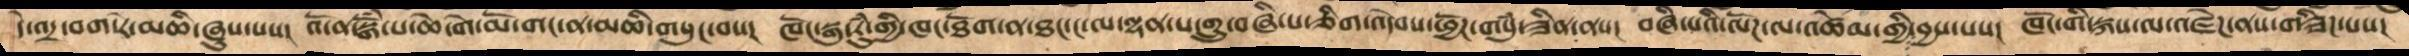དེ་འདྲ་བག་རེ་མཆི་ཞུས་པས།  འོ་ན་སྒོཾ་པ་ཆེ་གེ་མོ་གང་ན་མཆི་གསུང་བས།  ཁོང་སྐུ་རུཾ་གྱི་ཁང་ཐོག་ན་ཐང་ང་ལ་ལྷན་པ་གྲུ་བཞི་པ་ཅིག་འདེབས་ཕྱོཌ་གསུཾ་ཟིན་ནས།  བཞི་པའི་ལོཌ་ལ་འཚེམ་གྱི་བྱས་པས།  ཁོང་གི་སྐས་ལ་འཛེཌ་ནས་གཟིཌ་པས།
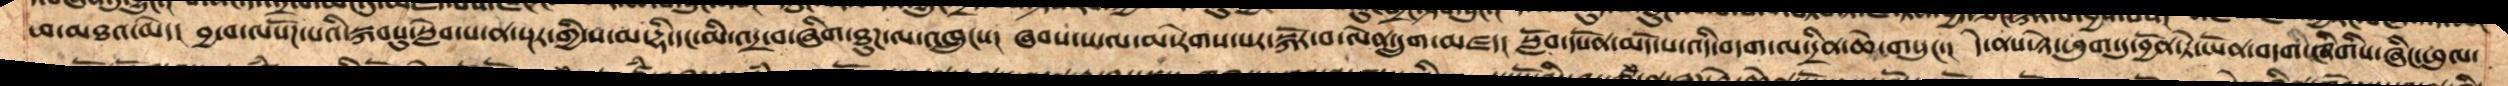ཕ་མཐའ་མེད།  བྱ་བ་ལ་སོཌ་པའི་སྐབསུ་སླེབས་ན་སྔར་གྱི་ས་མ་དྷི་དང་མི་འདྲ་བ་ཞིག་ཐུཌ་ལ་འཁྲུངས།  ཞབས་ས་ལ་མ་རེགས་པར་སྐོར་བ་ལེན་དྲུག་མཛད།  སློབ་དཔོན་མདོ་ས་འདི་བདག་ལ་དྲིན་ཆེ་གསུང་།   དེ་ནས་ཉེ་ཕུག་དུ་བྱོན་ཏེ་ཡོན་བདག་ཞིགིས་ཞིང་ཕུལ་
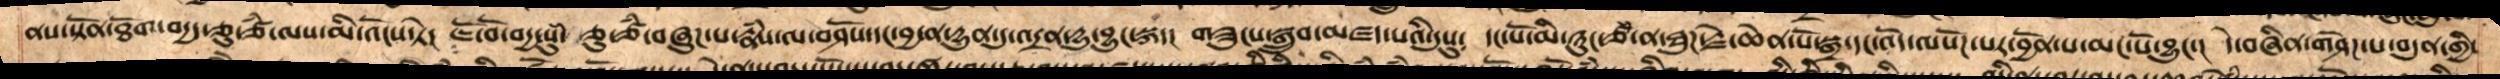ནས་སྟོན་ཐོག་བདྱད་ཅུ་ཙཾ་ལས་མི་འོངས་ཏེ།  ཇོ་བོ་བདྱ་སུཾ་ ཅུ་ཙཾ་བཞུཌ་པ་རྣཾས་ལ་བཤོས་དང་བྱ་ན་དྱུན་དུ་འདྲན་དྱུ་བྱུང་སྐད་།   གཟུངས་སྒྲུབ་མཛད་པའི་དུསུ༴  དང་པོ་མི་ཉུང་ཙཾ་ན་ཐུཌ་རྗེ་ཆེན་པོ་སྒྲ་དང་འོད་ལསོཌ་པར་བྱོན་པ་མང་པོ་བྱུང་།  དེ་བཞིན་གཤེཌ་པ་བདུན་གྱི་
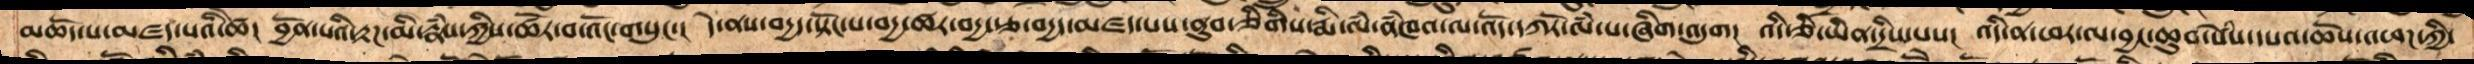མཆོད་པ་མཛད་པའི་ཚེ།  བྱོན་པའི་རྟཌ་མི་རྣཾས་ཀྱིས་ཚོར་བ་འོང་གསུང་།  དེ་ནས་བདྱ་སྟོང་པ་བདྱ་ཚར་བདྱ་རྩ་བདྱད་མཛད་པས་ནུབ་ཅིགིས་རྨི་ལཾ་ནཾཁའ་ལ་འོད་དཀོར་ལཾ་པ་ཞིག་འདུག།  འདི་ཅི་ཡིན་དྲིས་པས།  འདི་ན་ཕར་ལ་བྱང་ཆུབ་སེཾས་དཔའ་ཆོས་འཕཌ་ཀྱི་
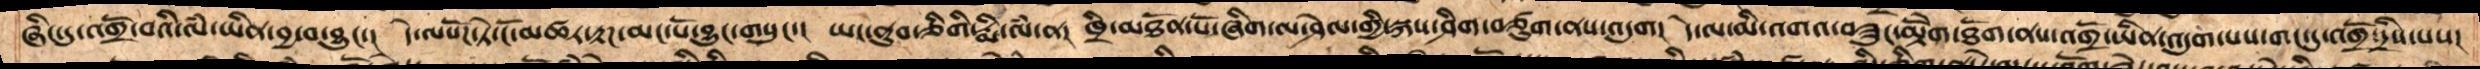ཞིང་དུ་འགྲོ་བའི་ལཾ་ཡིན་བྱ་བ་བྱུང་།  དེ་ལསོཌ་ཏེ་ངོ་མཚར་རྟཌ་མང་པོ་བྱུང་གསུང་།  ཡང་ནུབ་ཅིགི་རྨི་ལཾ་ན།  ཁྲི་མཐོན་པོ་ཞིག་ལ་ཤེལ་གྱི་སྐས་ཤིག་བཙུག་ནས་འདུག  དེ་ལ་མི་འགའ་བཟུང་མྟོེག་ཐོག་ནས་འགྲོ་ཡིན་འདུག་པས་གང་དུ་འགྲོ་དྲིས་པས།
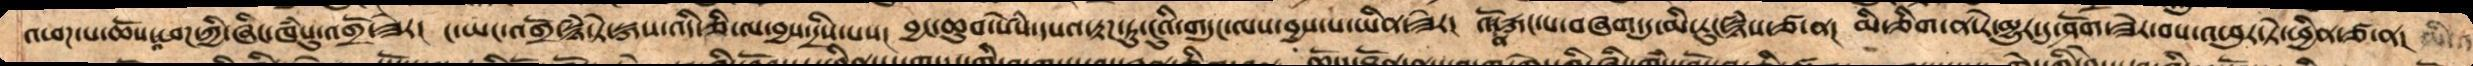འཕཌ་པ་ཆོས་འཕཌ་ཀྱི་ཞིང་ཁཾསུ་འགྲོ་ཟེར། ང་ཡང་འགྲོ་སྙཾ་སྟེ་སྐས་འདི་ཅི་ལ་བྱས་དྲིས་པས། བྱང་ཆུབ་སེཾས་དཔའ་རྟཌ་ཏུ་ངུའི་གདུང་ལས་བྱས་པ་ཡིན་ཟེར། འོ་ན་རྐང་པ་བཞག་དུ་མི་རུང་སྙཾས་ཙ་ན། མི་ཅིག་ན་རེ་མྱུར་དུ་ཤོག་ཟེར་བས་འཕུར་ཏེ་ཕྱིན་ཙ་ན། མི་ན
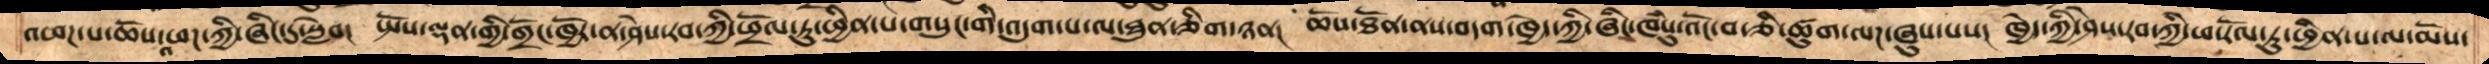འཕཌ་པ་ཆོས་འཕཌ་ཀྱི་ཞིང་དུ་སླེབ།  སྤོས་ལྡན་གྱི་གྲོང་ཁྱེར་ན་ཤེས་རབ་ཀྱི་ཕྲོལ་ཏུཕྱིན་པ་གསུང་གི་འདུག་པ་ལ་ཐུན་ཅིག་ཉན།  ཆོས་ཐོན་ནས་བདག་ཁྱེད་ཀྱི་ཞིང་ཁཾསུ་འོང་བ་ཅི་ཚུག་ལཌ་ཞུས་པས།  ཁྱེད་ཀྱི་ཤེས་རབ་ཀྱི་ཕ་རོལ་ཏུ་ཕྱིན་པ་ལ་མོས་
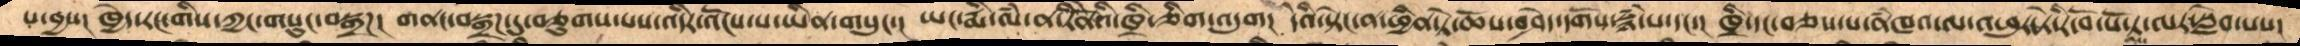པ་བྱས།  ཁྱོད་རང་གིས་ཀྱང་གསུང་བསྒྲཌ།  གནང་བསྒྲཌ་དུ་བཅུགས་པས་འདིར་འོངས་པ་ཡིན་གསུངས།  ཡང་རྨི་ལཾ་ན་རོིནེའི་ཁྲི་ཅིག་འདུག།  དེའི་སྟེང་ན་ཕྱིན་ཏེ་ཆོས་བཤེད་དགོས་སྙཾ་པ་དང་།  ཁྲི་དང་བཅས་པ་ནཾཁའ་ལ་འཕུར་ཏེ་རི་བོ་པོ་ཏ་ལར་སླེབ་པས་
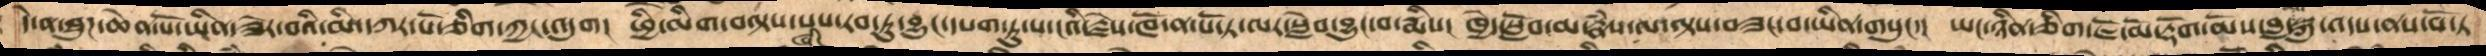དེ་ན་ཐུཌ་ཆེན་པོ་ཡིན་ཟེར་བའི་མི་དཀར་པོ་ཅིག་ཀྱང་འདུག  ཕྱི་མིག་བལྟས་པས་རབ་ཏུ་བྱུང་དཔག་ཏུ་མེད་པ་ངའི་རྗེས་ཁོ་ན་ལ་པོ་ཏ་ལར་སླེབ་བྱུང་བ་རྨིས།  ཁྱེད་སློབ་མ་རྣཾས་ལ་ལྟས་བཟང་བ་ཡིན་གསུང་། ཡང་ཉིན་ཅིག་ཇོ་མོ་རྡོག་མོས་བླ་མ་སྐུ་འདས་ནས་པོ་ཏ་
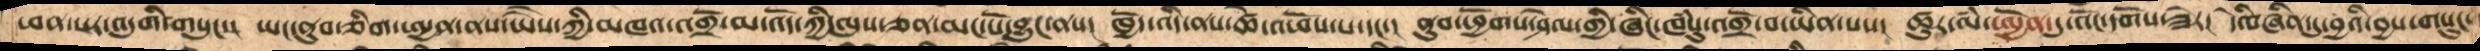ཕན་པར་འདུགི་གསུངས།  ཡང་ནུབ་ཅིག་ཨྱན་ནས་ཡཻས་ཀྱི་མཁའ་འགྲོ་མ་འོད་ཀྱི་ལུས་ཅན་མང་པོ་བྱུང་ནས།  ཁྱོད་འདི་ནས་ཚེ་འཕོས་པ་དང་།  ནུབ་ཕྱོགས་ཤེལ་གྱི་ཞིང་ཁཾསུ་འགྲོ་བ་ཡིན་པས།  ཚུར་ལཾ་ཨྱོན་དུ་འོང་དགོས་ཟེར།  དེ་བཞིན་དུ་བྱའི་བྱས་གསུང་
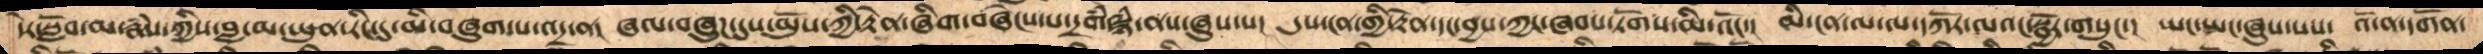དེར་སློབ་མ་རྣཾས་ཀྱིས་བླ་མ་ཡུན་རིང་དུ་མི་བཞུགས་པ་འདྲ་ན།  ཞལ་བཞུཌ་དུས་མོུས་ཀྱི་རྟེན་ཞིག་བཞེངས་པ་དྲགཾ་སྙཾ་ནས་ཞུས་པས།  དུས་ངན་གྱི་རྟེན་དང་བྱས་ཀྱང་ཞབས་ཏོག་མི་འོང་།  མི་ངན་ལ་ལ་དཀོར་ལའང་སྦྱོར་གསུང་།  ཡང་ཡང་ཞུས་པས།  འོ་ན་དགོན་
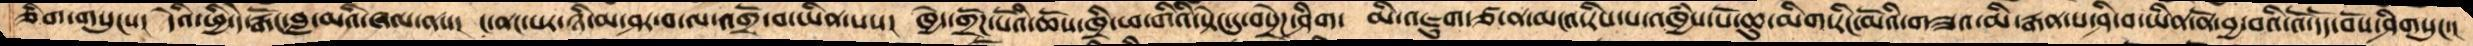ཅིག་གསུངས།  དེའི་ཕྱི་དེ་རྒོང་བླ་མའི་ཞལ་ནས།  ང་ནང་པར་ཉི་མ་ཤར་བ་ལ་འགྲོ་བ་ཡིན་པས།  ཁྱེད་གྲོཌ་པོའི་ཆོས་ཁྲི་ཕ་གིའི་སྟེང་དུ་བསྲེཌ་ཤིག་  མེ་འཇུག་ཙ་ན་མངའ་རིས་པ་འཁྱཾས་པོ་ཆུ་མིག་རིང་མོའི་གཟའ་མི་རྒན་པ་ཤི་བ་ཡིན་ནོ་བྱ་བའི་འོ་དོད་བོས་ཤིགསུངས།
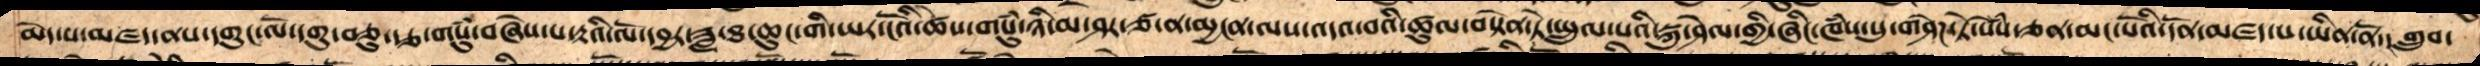མེད་པ་མཛད་ནས་དགུང་ལོ་དགུ་བཅུ་རྩ་གསུཾ་བཞེས་པ་རྟའི་ལོ་དབྱར་ཟླ་ཐ་ཆུང་གི་ཡར་ངོའི་ཚེས་གསུཾ་གྱི་ཉི་མ་ཤར་ཙ་ན་མྱངན་ལས་འདའ་བའི་ཚུལ་བསྟེན་ཏེ་སྤྲུལ་པའི་སྐུ་ཤེལ་གྱི་ཞིང་ཁཾས་སུ་གཤེཌ་ཏེ་སེཾས་ཅན་མང་པོའི་དོན་མཛད་པ་ཡིན་ནོ།  གྲུབ་
